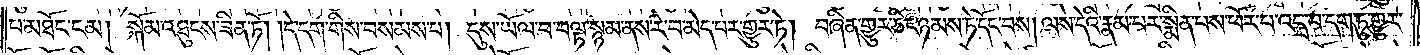པ་མཐོང་ངམ། སྐོམ་འཐུངས་ཟིན་ཏོ། །དེ་དག་གིས་བསམས་པ། དུས་ཡོལ་བ་བལྟ་སྙམ་ནས་རེ་བ་མེད་པར་གྱུར་ཏེ། བཞིན་གྱུར་ཅིང་ཉམས་ཏེ་དོང་བས། ལས་དེའི་རྣམ་པར་སྨིན་པས་ཕོར་པ་འདྲ་བ་དག་ཏུ་གྱུར་
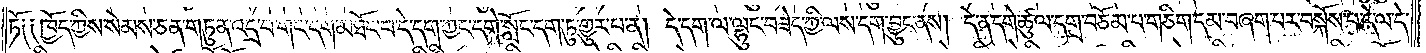ཏོ༑ ༑ཁྱོད་ཀྱིས་སེམས་ཅན་གཏུན་འདྲ་བ་གང་དག་མཐོང་བ་དེ་དག་ཀྱང་དགེ་སློང་དག་ཏུ་གྱུར་པ་ན། དེ་དག་ལ་ལྷུང་བཟེད་ཀྱི་ལས་དག་བྱུང་ནས། དེ་ན་དགེ་ཚུལ་དགྲ་བཅོམ་པ་གཅིག་དམ་བཞག་པར་བསྐོས་པ་དེ་ལ་དེ་
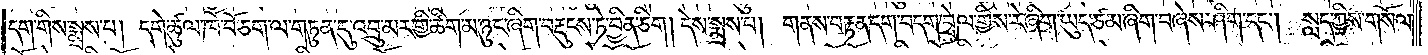དག་གིས་སྨྲས་པ། དགེ་ཚུལ་ཁོ་བོ་ཅག་ལ་གཏུན་དུ་འབྲུ་མར་གྱི་ཚིག་མ་ཉུང་ཞིག་བརྡུངས་ཏེ་བྱིན་ཅིག། དེས་སྨྲས་པ། གནས་བརྟན་དག་བདག་བྲེལ་གྱིས་རེ་ཞིག་ཡུད་ཙམ་ཞིག་བཞེས་ཤིག་དང༌། སླད་ཀྱིས་གསོལ་
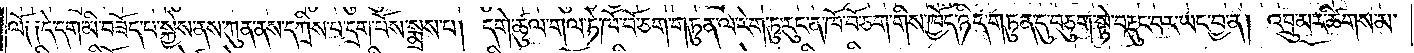ལོ༑ ༑དེ་དག་མི་བཟོད་པ་སྐྱེས་ནས་ཀུན་ནས་དཀྲིས་པ་དྲག་པོས་སྨྲས་པ། དགེ་ཚུལ་གལ་ཏེ་ཁོ་བོ་ཅག་གཏུན་ལ་རེག་ཏུ་རུང་ན་ཁོ་བོ་ཅག་གིས་ཁྱོད་ཉིད་གཏུན་དུ་བཅུག་སྟེ་བརྡུང་བར་ཡང་བྱ་ན། འབྲུ་མར་ཚིགས་མ་
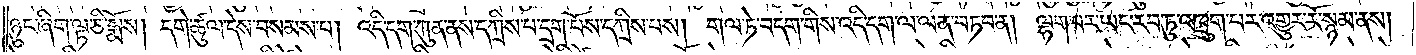ཉུང་ཞིག་ལྟ་ཅི་སྨོས། དགེ་ཚུལ་དེས་བསམས་པ། འདི་དག་ཀུན་ནས་དཀྲིས་པ་དྲག་པོས་དཀྲིས་པས། གལ་ཏེ་བདག་གིས་འདི་དག་ལ་ལན་བཏབ་ན། ལྷག་པར་ཡང་རབ་ཏུ་འཁྲུག་པར་འགྱུར་རོ་སྙམ་ནས།
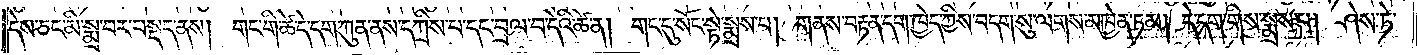དེས་ཅང་མི་སྨྲ་བར་བསྡད་ནས། གང་གི་ཚེ་དེ་དག་ཀུན་ནས་དཀྲིས་པ་དང་བྲལ་བ་དེའི་ཚེ་ན། གང་དུ་སོང་སྟེ་སྨྲས་པ། གནས་བརྟན་དག་ཁྱེད་ཀྱིས་བདག་སུ་ལགས་མཁྱེན་ཏམ། དེ་དག་གིས་སྨྲས་པ། ཤེས་ཏེ་
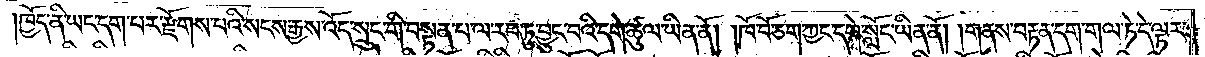ཁྱོད་ནི་ཡང་དག་པར་རྫོགས་པའི་སངས་རྒྱས་འོད་སྲུང་གི་བསྟན་པ་ལ་རབ་ཏུ་བྱུང་བའི་དགེ་ཚུལ་ཡིན་ནོ། །ཁོ་བོ་ཅག་ཀྱང་དགེ་སློང་ཡིན་ནོ། །གནས་བརྟན་དག་གལ་ཏེ་དེ་ལྟར་
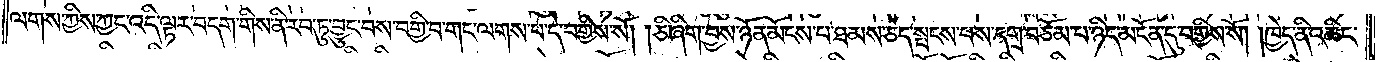ལགས་ཀྱིས་ཀྱང་འདི་ལྟར་བདག་གིས་ནི་རབ་ཏུ་བྱུང་བས་བགྱི་བ་གང་ལགས་པ་དེ་བགྱིས་སོ། །ཅི་ཞིག་བྱས་ཉོན་མོངས་པ་ཐམས་ཅད་སྤངས་པས་དགྲ་བཅོམ་པ་ཉིད་མངོན་དུ་བགྱིས་སོ། །ཁྱེད་ནི་འཆིང་
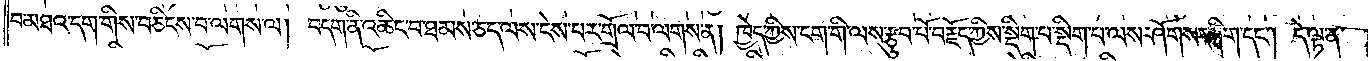བ་མཐའ་དག་གིས་བཅིངས་བ་ལགས་ལ། བདག་ནི་འཆིང་བ་ཐམས་ཅད་ལས་ངེས་པར་གྲོལ་བ་ལགས་ན། ཁྱེད་ཀྱིས་ངག་གི་ལས་རྩུབ་པོ་བརྗོད་ཀྱིས་སྡིག་པ་སྡིག་པ་ལས་ཤོགས་ཤིག་དང༌། དེ་ལྟ་ན་
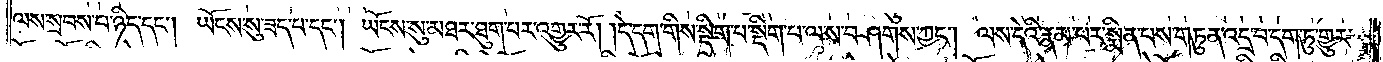ལས་སྲབས་པ་ཉིད་དང༌། ཡོངས་སུ་ཟད་པ་དང༌། ཡོངས་སུ་མཐར་ཐུག་པར་འགྱུར་རོ། །དེ་དག་གིས་སྡིག་པ་སྡིག་པ་ལས་བཤགས་ཀྱང༌། ལས་དེའི་རྣམ་པར་སྨིན་པས་གཏུན་འདྲ་བ་དག་ཏུ་གྱུར་
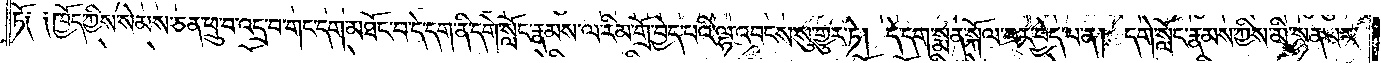ཏོ༑ ༑ཁྱོད་ཀྱིས་སེམས་ཅན་ཕྲུ་བ་འདྲ་བ་གང་དག་མཐོང་བ་དེ་དག་ནི་དགེ་སློང་རྣམས་ལ་རིམ་གྲོ་བྱེད་པའི་ལྷ་འབངས་སུ་གྱུར་ཏེ། དེ་དག་སྨན་སྐོལ་བར་བྱེད་པ་ན། དགེ་སློང་རྣམས་ཀྱིས་མི་སྙན་པར་
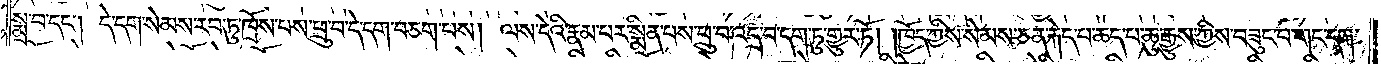སྨྲ་བ་དང༌། དེ་དག་སེམས་རབ་ཏུ་ཁྲོས་པས་ཕྲུ་བ་དེ་དག་བཅག་པས། ལས་དེའི་རྣམ་པར་སྨིན་པས་ཕྲུ་བ་འདྲ་བ་དག་ཏུ་གྱུར་ཏོ། །ཁྱོད་ཀྱིས་སེམས་ཅན་རྐེད་པ་ཆད་པ་ཆུ་རྒྱུས་ཀྱིས་བཟུང་བ་གང་དག་
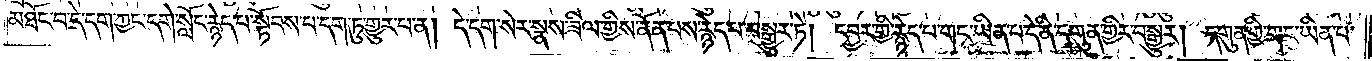མཐོང་བ་དེ་དག་ཀྱང་དགེ་སློང་རྙེད་པ་སྟོབས་པ་དག་ཏུ་གྱུར་པ་ན། དེ་དག་སེར་སྣས་ཟིལ་གྱིས་ནོན་པས་རྙེད་པ་བསྒྱུར་ཏེ། དབྱར་གྱི་རྙེད་པ་གང་ཡིན་པ་ད་ནི་དགུན་གྱིར་བསྒྱུར། དགུན་གྱི་གང་ཡིན་པ་
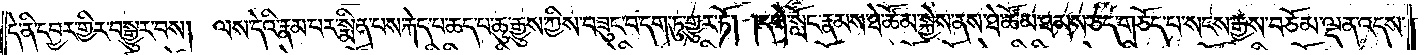དེ་ནི་དབྱར་གྱིར་བསྒྱུར་བས། ལས་དེའི་རྣམ་པར་སྨིན་པས་རྐེད་པ་ཆད་པ་ཆུ་རྒྱུས་ཀྱིས་བཟུང་བ་དག་ཏུ་གྱུར་ཏོ། །དགེ་སློང་རྣམས་ཐེ་ཚོམ་སྐྱེས་ནས་ཐེ་ཚོམ་ཐམས་ཅད་གཅོད་པ་སངས་རྒྱས་བཅོམ་ལྡན་འདས་
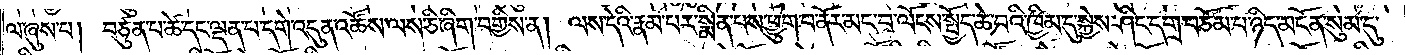ལ་ཞུས་པ། བཙུན་པ་ཚེ་དང་ལྡན་པ་དགེ་འདུན་འཚོས་ལས་ཅི་ཞིག་བགྱིས་ན། ལས་དེའི་རྣམ་པར་སྨིན་པས་ཕྱུག་པ་ནོར་མང་བ་ལོངས་སྤྱོད་ཆེ་བའི་ཁྱིམ་དུ་སྐྱེས་ཤིང་དགྲ་བཅོམ་པ་ཉིད་མངོན་སུམ་དུ་
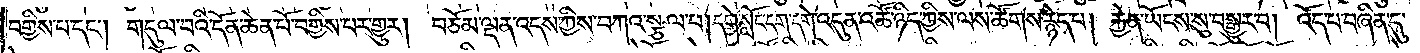བགྱིས་པ་དང༌། གདུལ་བའི་དོན་ཆེན་པོ་བགྱིས་པར་གྱུར། བཅོམ་ལྡན་འདས་ཀྱིས་བཀའ་སྩལ་པ། དགེ་སློང་དག་དགེ་འདུན་འཚོ་ཉིད་ཀྱིས་ལས་ཚོགས་རྙེད་པ། རྐྱེན་ཡོངས་སུ་བསྒྱུར་བ། འོད་པ་བཞིན་དུ་
